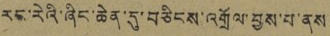རང་རེའི་ཞིང་ཆེན་དུ་བཅིངས་འགྲོལ་བྱས་པ་ནས
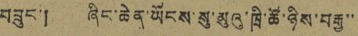བཟུང་། ཞིང་ཆེན་ཡོངས་སུ་མུའུ་ཁྲི་ཚོ་ཉིས་བརྒྱ་་
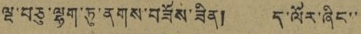ལྔ་བཅུ་ལྷག་ཏུ་ནགས་བཟོས་ཟིན། ད་ལོར་ཞིང་་
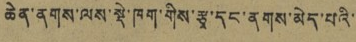ཆེན་ནགས་ལས་སྡེ་ཁག་གིས་རྩྭ་དང་ནགས་མེད་པའི་་
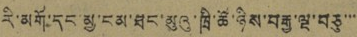རི་མགོ་དང་མྱ་ངམ་ཐང་མུའུ་ཁྲི་ཚོ་ཉིས་བརྒྱ་ལྔ་བཅུ་་་
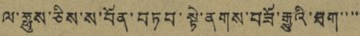ལ་ཧྥུས་ཅིས་ས་བོན་བཏབ་སྟེ་གནས་བཟོ་རྒྱུའི་ཐག་་་་་
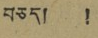བཅད། །
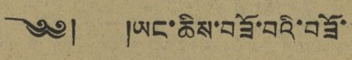༄༅། །ཡང་ཆིས་བཟོ་བའི་བཟོ་
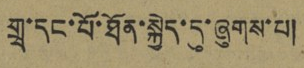གྲྭ་དང་པོ་ཐོན་སྐྱེད་དུ་ཞུགས་པ།
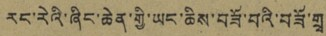རང་རེའི་ཞིང་ཆེན་གྱི་ཡང་ཆིས་བཟོ་བའི་བཟོ་གྲྭ
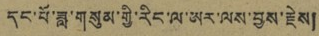དང་པོ་ཟླ་གསུམ་གྱི་རིང་ལ་ཨར་ལས་བྱས་རྗེས།
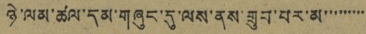ཉེ་ལམ་ཚལ་དམ་གཞུང་དུ་ལས་ནས་གྲུབ་པར་མ་་་་་་་་་
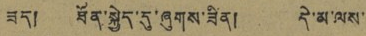ཟད། ཐོན་སྐྱེད་དུ་ཞུགས་ཟིན། དེ་མ་ལས་
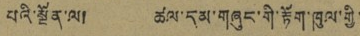པའི་སྔོན་ལ། ཚལ་དམ་གཞུང་གི་རྟོག་ཁུལ་གྱི་
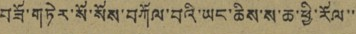བཟོ་གཏེར་སོ་སོས་བཀོལ་བའི་ཡང་ཆིས་ས་ཆ་ཕྱི་རོལ་་
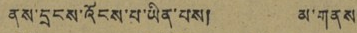ནས་དྲངས་འོངས་པ་ཡིན་པས། མ་གནས་
